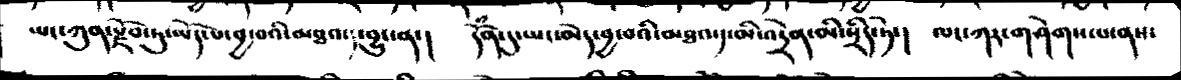ཡང་ཀུན་སྫོབ་ཏུ་ཡོད་པ་བྱ་བའི་མཐའ་༡་བྱུང་ན་།   དོཾན་དུ་ཡང་མེད་བྱ་བའི་མཐའ་༡་མི་འདྲེན་མི་སྲིད་ཏེ་།   ལང་ཀར་གཤེགས་པ་ནས་
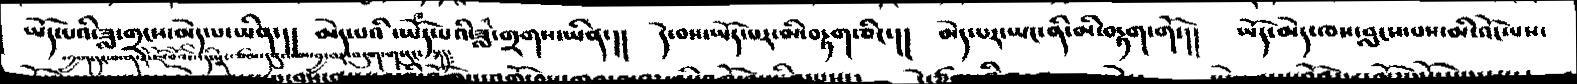ཡོད་པའི་ཟླ་གྲངས་མེད་པ་ཡིན་།།     མེད་པའི་ཡོད་པའི་ཟླ་གྲགས་ཡིན་།།   དེ་བས་ཡོད་པར་མི་བརྟག་ཅིང་།།   མེད་པར་ཡང་ནི་མི་བརྟག་གོ་།།   ཡོད་མེད་ཁས་བླངས་པས་མི་འོང་པས་
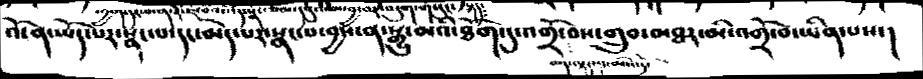འོ་ན་ཡོད་པར་སྣང་པ་དང་མེད་པར་སྣང་པ་བྱས་ན་སྒྱུ་མའི་ཐོག་དུ་འགྲོ་བས་གྲུབ་མཐར་མི་འགྲོ་བ་ཡིན་པས་།
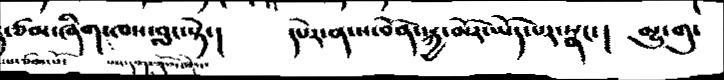ཙམ་ཞིག་ཁས་བླང་སྟེ་།     དཔེར་ན་ས་བོན་སྐྱ་མོར་ཡོད་པར་སྣང་།  མྱུ་གུ་
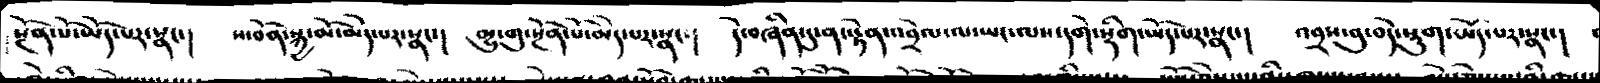སྔོན་པོ་ཡོད་པར་སྣང་།     ས་བོན་སྐྱ་མོ་མེད་པར་སྣང་།   མྱུ་གུ་སྔོན་པོ་མེད་པར་སྣང་།    དེ་བཞིན་དུ་ནང་རྟེན་འབྲེལ་ལ་ཡང་ལས་དགེ་སྡིག་ཡོད་པར་སྣང་།    འབྲས་བུ་བདེ་སྡུག་ཡོད་པར་སྣང་།
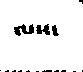ལས་
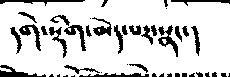དགེ་སྡིག་མེད་པར་སྣང་།
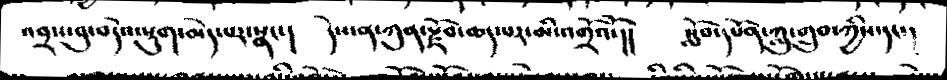འབྲས་བུ་བདེའ་སྡུག་མེད་པར་སྣང་།   དེས་ན་ཀུན་རྫོབ་ཆད་པར་མི་འགྲོའོ་།།   སློབ་དཔོན་ཀླུ་གྲུབ་ཀྱིས་དང་།
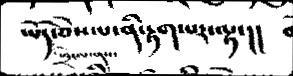ཡོད་ཅེས་པ་ནི་རྟག་པར་ལྟ་།།
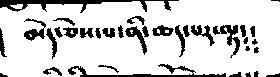མེད་ཅེས་པ་ནི་ཆད་པར་ལྟ།།
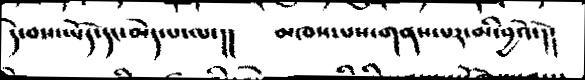དེ་བས་ཡོད་དང་མེད་པ་ལ་།།   མཁས་པས་གནས་པར་མི་བྱའོ་།།
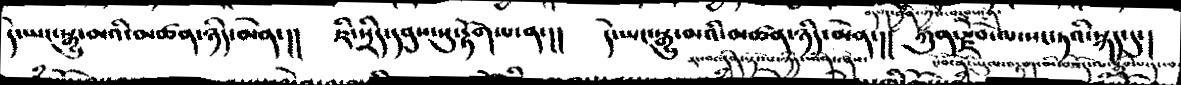དེ་ཡང་སྒྱུ་མའི་མཚན་ཉིད་མེན་།།   ཇི་སྲིད་དབུས་སུ་རྟོག་པ་ན་།།   དེ་ཡང་སྒྱུ་མའི་མཚན་ཉིད་མེན་།།  ཀུ་རྫོབ་ལ་སང་ཏའི་སྐད་དུ་།
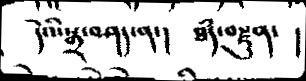དེའི་སྒྲ་བཤད་ན་།   ཐཾད་བརྫུན་   །
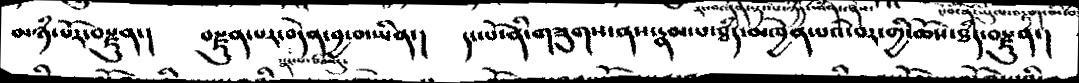མཉཾ་པོར་བརྫུན་།   བརྫུན་པར་བདེན་བྱ་བ་ཡིན་།   དང་པོ་ནི་གཟུགས་ནས་རྣམ་པ་ཐཾད་མཁྱེན་པའི་བར་གྱི་ཆོས་ཐཾད་བརྫུན་།
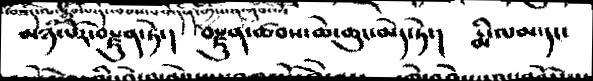མཉཾ་པོ་བརྫུན་ཏེ་།   བརྫུན་ཚབས་ཆེ་ཆུང་མེད་ཏེ་།   རྨི་ལམ་དང་
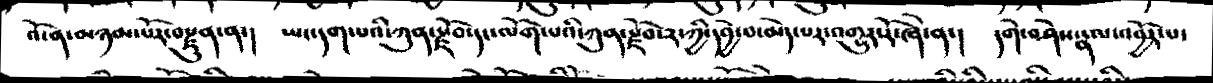འོ་ན་མཉམ་པོར་བརྫུན་ན་།     ཡང་དག་པའི་ཀུན་རྫོབ་དང་ལོག་པའི་ཀུན་རྫོབ་༢་ཀྱི་དབྱེ་བ་མེད་པར་འགྱུར་རོ་ཞེ་ན་།   དགེ་བཤེས་རྣལ་འབྱོར་པ་
